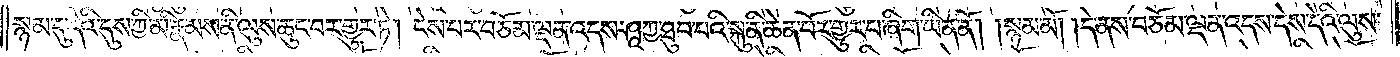སྙམ་དུ་དེའི་དུས་ཀྱི་མི་རྣམས་ནི་ལུས་ཆུང་བར་གྱུར་ཏེ། ངེས་པར་བཅོམ་ལྡན་འདས་ཤཱཀྱ་ཐུབ་པའི་སྐུ་ནི་ཆེན་པོར་གྱུར་པ་ཞིག་ཡིན་ནོ། །སྙམ་མོ། །དེ་ནས་བཅོམ་ལྡན་འདས་དེས་དེའི་ལུས་
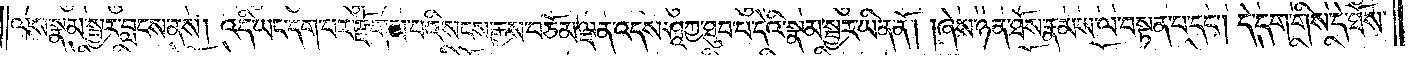ལས་སྣམ་སྦྱར་བླངས་ནས། འདི་ཡང་དག་པར་རྫོགས་པའི་སངས་རྒྱས་བཅོམ་ལྡན་འདས་ཤཱཀྱ་ཐུབ་པ་དེའི་སྣམ་སྦྱར་ཡིན་ནོ། །ཞེས་ཉན་ཐོས་རྣམས་ལ་བསྟན་པ་དང༌། དེ་དག་གིས་དེ་ཐོས་
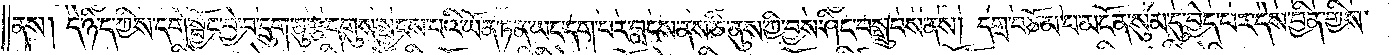ནས། དེ་ཉིད་ཀྱིས་དགེ་སྦྱོང་བྱེ་བ་དྲུག་ཅུ་རྩ་དགུས་སྦྱངས་པའི་ཡོན་ཏན་ཡང་དག་པར་བླངས་ནས་ཅི་ནུས་ཀྱི་བྱས་ཤིང་བསྒྲུབས་ནས། དགྲ་བཅོམ་པ་མངོན་སུམ་དུ་བྱེད་པར་དེས་བྱིན་གྱིས་
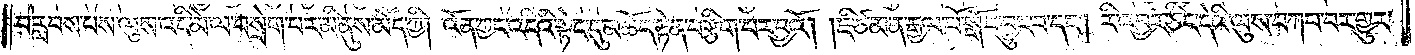བརླབས་པས་ལུས་འདི་མེ་ལ་བསྲེག་པར་མི་ནུས་མོད་ཀྱི། འོན་ཀྱང་འདིའི་སྟེང་དུ་མཆོད་རྟེན་བརྩིག་པར་བྱའོ། །ཇི་ཙམ་ན་རྒྱལ་པོ་སྒོར་བྱུང་བ་དང༌། རི་འབྱར་ཅིང་དེའི་ལུས་བཀབ་པར་གྱུར་
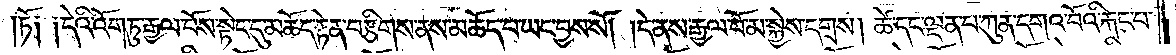ཏོ༑ ༑དེའི་འོག་ཏུ་རྒྱལ་པོས་སྟེང་དུ་མཆོད་རྟེན་བརྩིགས་ནས་མཆོད་པ་ཡང་བྱས་སོ། །དེ་ནས་རྒྱལ་པོ་མ་སྐྱེས་དགྲས། ཚེ་དང་ལྡན་པ་ཀུན་དགའ་བོའི་རྐང་པ་
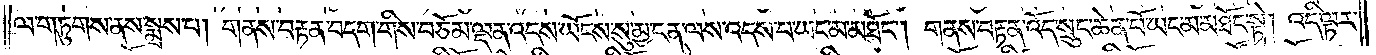ལ་གཏུགས་ནས་སྨྲས་པ། གནས་བརྟན་བདག་གིས་བཅོམ་ལྡན་འདས་ཡོངས་སུ་མྱ་ངན་ལས་འདས་པ་ཡང་མ་མཐོང༌། གནས་བརྟན་འོད་སྲུང་ཆེན་པོ་ཡང་མ་མཐོང་སྟེ། འདི་ལྟར་
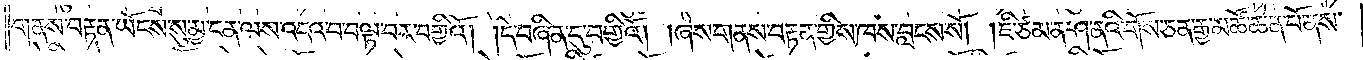གནས་བརྟན་ཡོངས་སུ་མྱ་ངན་ལས་འདའ་བ་བལྟ་བར་བགྱིའོ། །དེ་བཞིན་དུ་བགྱིའོ། །ཞེས་གནས་བརྟན་གྱིས་ཁས་བླངས་སོ། །ཇི་ཙམ་ན་ཤ་ནའི་གོས་ཅན་རྒྱ་མཚོ་ཆེན་པོ་ནས་
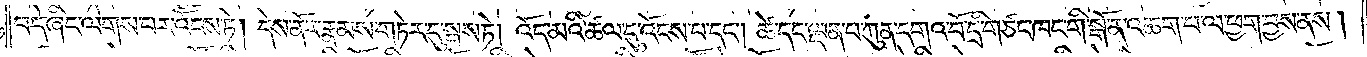བདེ་ཞིང་ལེགས་པར་འོངས་ཏེ། དེས་ནོར་རྣམས་གཏེར་དུ་སྦས་ཏེ། འོད་མའི་ཚལ་དུ་འོངས་པ་དང༌། ཚེ་དང་ལྡན་པ་ཀུན་དགའ་བོ་དྲི་གཙང་ཁང་གི་སྒོ་ན་འཆག་པ་ལ་ཕྱག་བྱས་ནས།
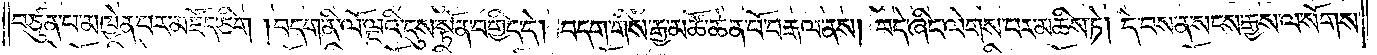བཙུན་པ་མཁྱེན་པར་མཛོད་ཅིག །བདག་ནི་ལོ་ལྔའི་དུས་སྟོན་བགྱིད་དེ། བདག་གིས་རྒྱ་མཚོ་ཆེན་པོ་བརྒལ་ནས། བདེ་ཞིང་ལེགས་པར་མཆིས་ཏེ། དེ་བས་ན་སངས་རྒྱས་ལ་སོགས་
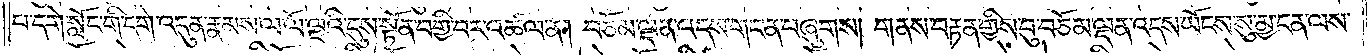པ་དགེ་སློང་གི་དགེ་འདུན་རྣམས་ལ་ལོ་ལྔའི་དུས་སྟོན་བགྱི་བར་འཚལ་ན། བཅོམ་ལྡན་འདས་གང་ན་བཞུགས། གནས་བརྟན་གྱིས་བུ་བཅོམ་ལྡན་འདས་ཡོངས་སུ་མྱ་ངན་ལས་
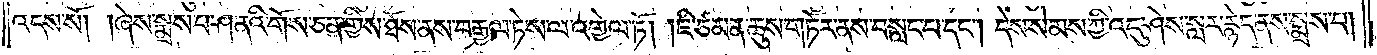འདས་སོ། །ཞེས་སྨྲས་པ་ཤ་ནའི་གོས་ཅན་གྱིས་ཐོས་ནས་བརྒྱལ་ཏེ་ས་ལ་འགྱེལ་ཏོ། །ཇི་ཙམ་ན་ཆུས་གཏོར་ནས་བསླང་པ་དང༌། དེས་སེམས་ཀྱི་འདུ་ཤེས་སླར་རྙེད་ནས་སྨྲས་པ།
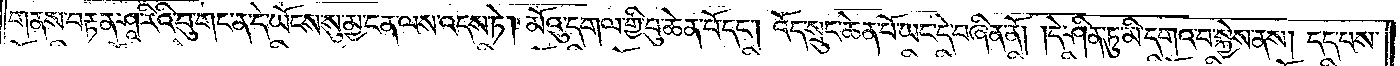གནས་བརྟན་ཤཱ་རིའི་བུ་གང་ན་དེ་ཡོངས་སུ་མྱ་ངན་ལས་འདས་ཏེ། མོའུ་དགལ་གྱི་བུ་ཆེན་པོ་དང༌། འོད་སྲུང་ཆེན་པོ་ཡང་དེ་བཞིན་ནོ། །དེ་ཤིན་ཏུ་མི་དགའ་བ་སྐྱེས་ནས། དད་པས་
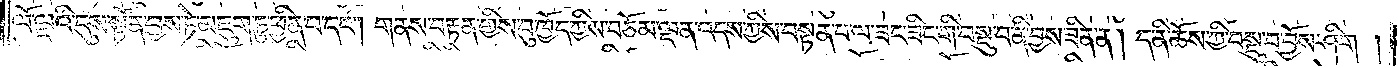ལོ་ལྔའི་དུས་སྟོན་བྱས་ཏེ་མཇུག་ཏུ་ཕྱིན་པ་དང༌། གནས་བརྟན་གྱིས་བུ་ཁྱོད་ཀྱིས་བཅོམ་ལྡན་འདས་ཀྱིས་བསྟན་པ་ལ་ཟང་ཟིང་གི་བསྡུ་བ་ནི་བྱས་ཟིན་ན། ད་ནི་ཆོས་ཀྱི་བསྡུ་བ་བྱོས་ཤིག །
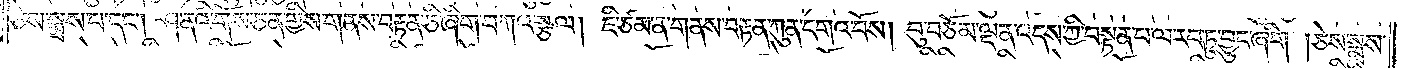ཅེས་སྨྲས་པ་དང༌། ཤ་ནའི་གོས་ཅན་གྱིས་གནས་བརྟན་ཅི་ཞིག་བཀའ་སྩལ། ཇི་ཙམ་ན་གནས་བརྟན་ཀུན་དགའ་བོས། བུ་བཅོམ་ལྡན་འདས་ཀྱི་བསྟན་པ་ལ་རབ་ཏུ་བྱུང་ཞིག །ཅེས་སྨྲས་
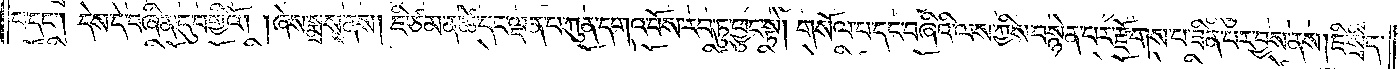པ་དང༌། དེས་དེ་བཞིན་དུ་བགྱིའོ། །ཞེས་སྨྲས་ནས། ཇི་ཙམ་ན་ཚེ་དང་ལྡན་པ་ཀུན་དགའ་བོས་རབ་ཏུ་ཕྱུང་སྟེ། གསོལ་པ་དང་བཞིའི་ལས་ཀྱིས་བསྙེན་པར་རྫོགས་པ་ཟིན་པར་བྱས་ནས། ཇི་སྲིད་
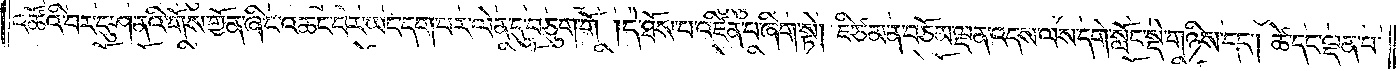འཚོའི་བར་དུ་ཤ་ནའི་གོས་གྱོན་ཞིང་འཆང་བར་ཡང་དག་པར་ལེན་དུ་བཅུག་གོ །དེ་ཐོས་པ་འཛིན་པ་ཞིག་སྟེ། ཇི་ཙམ་ན་བཅོམ་ལྡན་འདས་ལས་དགེ་སློང་སྡེ་གཉིས་དང༌། ཚེ་དང་ལྡན་པ་
